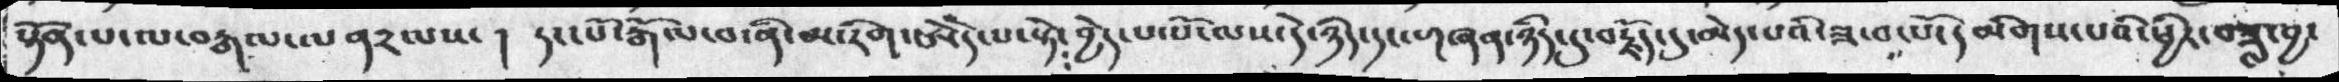སྟོན་པ་ལ་བརྒལ་ལན༢ལས་ ། དང་པོ་རྒོལ་བ་ནི་མ་རིག་ཨེདེ་པ་སྟེ་བྱེད་པ་པོ་ལས་དེ་ཉིད་དང་གཞན་ཉིད་དུ་བརྗོད་དུ་མེད་པའི་ཟ་བ་ོཔོ་དམིགས་པའི་ཕྱིར་བཟླ་བྱ་
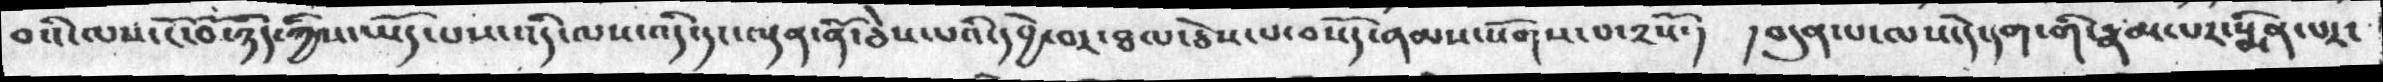བའི་ལས་ངོ་བོ་ཉིད་ཀྱིས་ཡོད་པས་འདི་ལས་འདི་དང་ལྡན་ནོ་ཅེས་པའི་དབྱེ་བར་ཐལ་ཅེས་པ་བསོད་ནམས་སོགས་པ་༢སོ་།  །བདུན་པ་ལས་དེ་དག་གི་རྣམ་པར་སྨིན་པར་
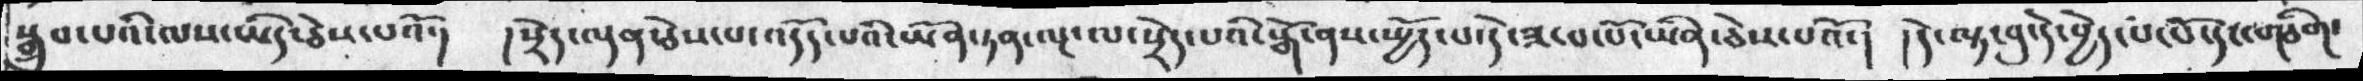སྒྲུབ་པའི་ལས་ཡིད་ཅེས་པའོ་།  །སྲིད་ལྡན་ཅེས་འདོད་པའི་ཡོན་ཏན་ལྔ་ལ་སྲེད་པའི་སྒོ་ནས་སྤྱོད་པ་དེ་ཟ་བ་པོ་ཡིན་ཅེས་པའོ་།   །དེ་ལྟ་བུ་དེ་བྱེད་པ་པོ་དང་གཅིག་
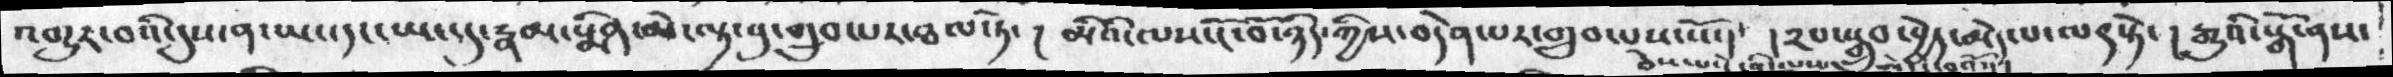འགྱུར་བའི་དུས་ན་ཡང་དང་ཡང་དུ་རྣམ་སྨིན་མེ་ལྟ་བུ་གྲུབ་པར་ཐལ་ཏེ་།  མིའི་ལས་ངོ་བོ་ཉིད་ཀྱིས་བདེན་པར་གྲུབ་པས་སོ་།  ། ༢པ་སྒྲུབ་བྱེད་མེད་པ་ལ༡སྟེ་ །  རྒྱུའི་སྒོ་ནས་
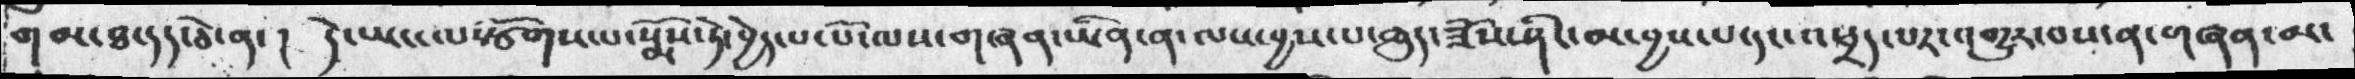གམ་ཐ་དད་ཅེ་ན་ །  དེ་ཡང་ལསྩོགས་པ་སྨོས་ཏེ་བྱེད་པ་པོ་ལས་གཞན་ཡིན་ན་ལས་བྱས་པ་ཆུད་ཟོས་ཤིང་མ་བྱས་པ་དང་འཕྲད་པར་འགྱུར་བས་ན་གཞན་མ་
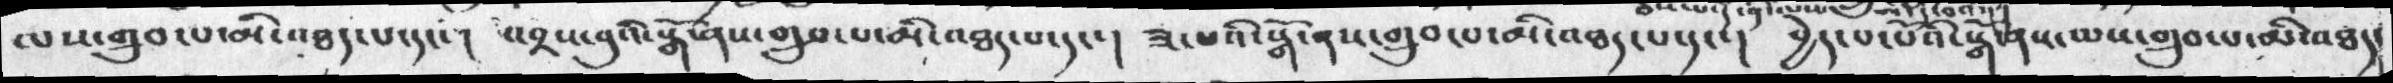ལས་གྲུབ་པ་མི་འཐད་པ་དང་།  འབྲས་བུའི་སྒོ་ནས་གྲུབ་པ་མི་འཐད་པ་དང་།  ཟ་པའི་སྒོ་ནས་གྲུབ་པ་མི་འཐད་པ་དང་།  བྱེད་པ་པོའི་སྒོ་ནས་ལས་གྲུབ་པ་མི་འཐད་
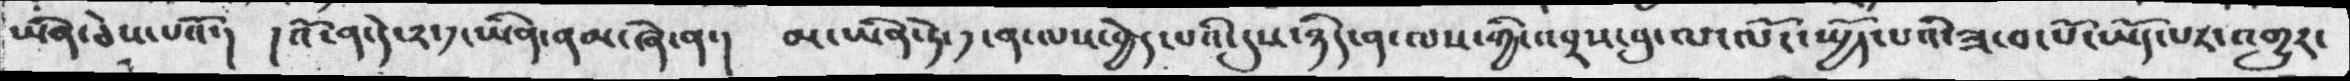ཡིན་ཅེས་པའོ་།  ། འོ་ན་དེ་༢་༡་ཡིན་ནམ་ཞེ་ན་།  མ་ཡིན་ཏེ་ ༡་ན་ལས་བྱེད་པའི་དུས་ཉིད་ན་ལས་ཀྱི་འབྲས་བུ་ལ་ལོང་སྤྱོད་པའི་ཟ་བ་པོ་ཡོད་པར་འགྱུར་
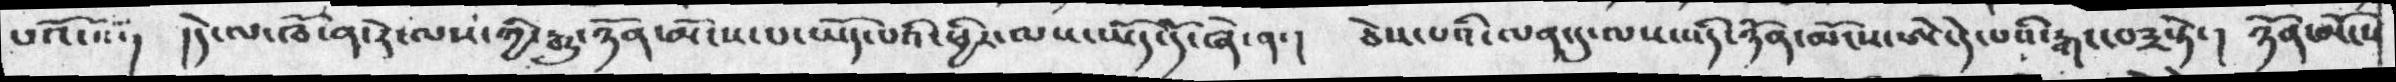པའོ་སོ་།  །དེ་ལ་ཁོ་ན་རེ་ལས་ཀྱི་རྒྱུ་ཉོན་མོངས་པ་ཡོད་པའི་ཕྱིར་ལས་ཡོད་དོ་ཞེ་ན་།  ཅེས་པའི་ལན་དུ་ལས་འདི་ཉོན་མོངས་ཨེ་དེ་པའི་རྐང་བ༣སྟེ་།  ཉོན་མོངས་
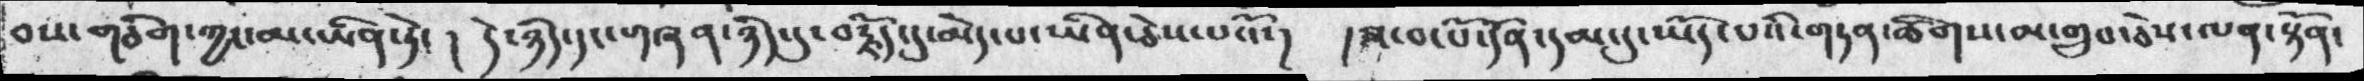བས་གཅིག་ཀྱང་མ་ཡིན་ཏེ་ ། དེ་ཉིད་དང་གཞན་ཉིད་དུ་བརྗོད་དུ་མེད་པ་ཡིན་ཅེས་པའོ་།   །ཟ་བ་པོ་དོན་དམ་དུ་ཡོད་པའི་གཏན་ཚིགས་མ་གྲུབ་ཅེས་ལན་སྟོན་
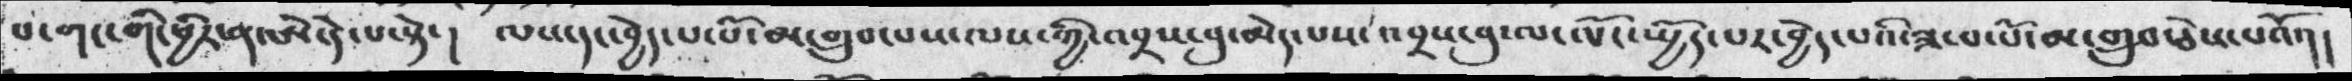པ་གང་གི་ཕྱིར་ན་ཨེ་དེ་པ་སྟེ་།  ལས་དང་བྱེད་པ་པོ་མ་གྲུབ་པས་ལས་ཀྱི་འབྲས་བུ་མེད་པས་འབྲས་བུ་ལ་ལོང་སྤྱོད་པར་བྱེད་པའི་ཟ་བ་པོ་མ་གྲུབ་ཅེས་པའོ་།།
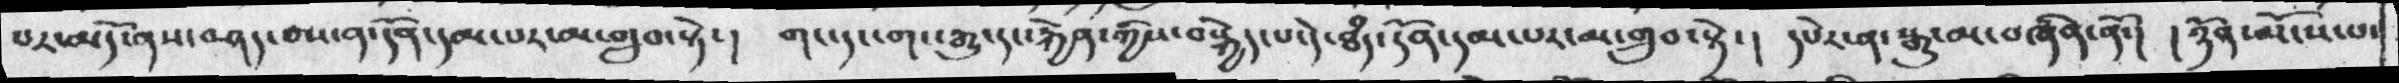པར་མདོ་ནས་བཤད་བས་ན་དོན་པར་མ་གྲུབ་སྟེ་།  གང་དང་གང་རྒྱུ་དང་རྐྱེན་ཀྱིས་བསྐྱེད་པ་དེ་ཐདཾ་དོན་དམ་པར་མ་གྲུབ་སྟེ་།  དཔེར་ན་རྒྱུ་ན་བཞིན་ནོ་།   ། ཉོན་མོངས་པ་
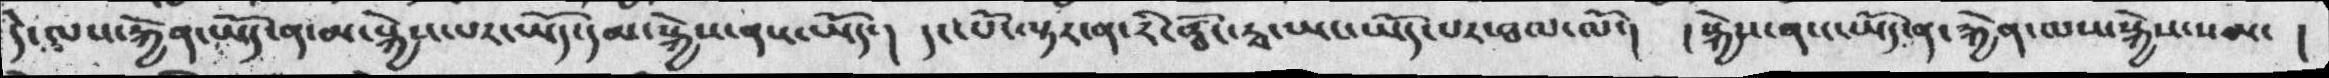དེ་ལས་རྐྱེན་ཡོད་ན་མ་སྐྱེས་པར་ཡོད་དམ་སྐྱེས་ནས་ཡོད་།    དང་པོ་ལྟར་ན་རི་བྭོང་རྭ་ཡང་ཡོད་པར་ཐལ་ལོ་།   ། སྐྱེས་ནས་ཡོད་ན་རྐྱེན་ལས་སྐྱེས་སམ་   །
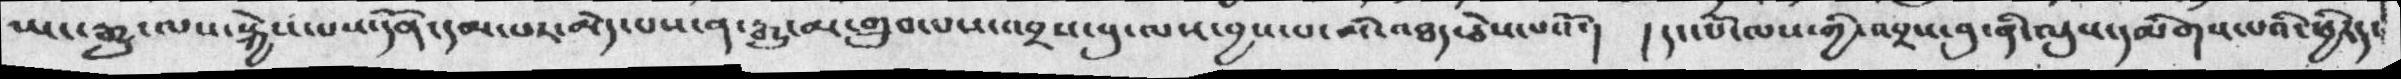ཡང་རྒྱུ་ལས་སྐྱེས་པས་དོན་དམ་པར་མེད་པས་ན་རྒྱུ་མ་གྲུབ་པས་འབྲས་བུ་ལས་བྱས་པ་མི་འཐད་ཅེས་པའོ་།   །དང་པོ་ལས་གྱི་འབྲས་བུ་ནི་ལུས་དམིགས་པའི་ཕྱིར་དང
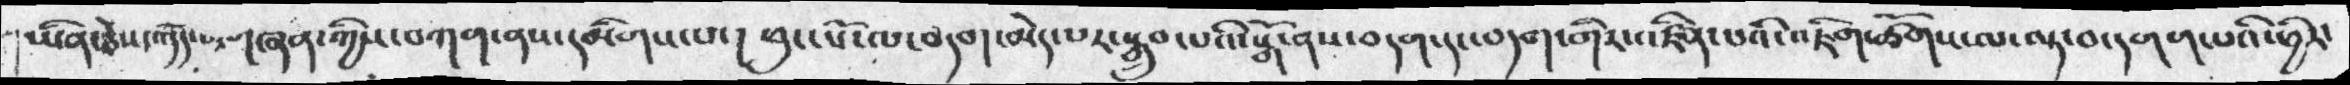ཡིན་ཅེས་འདོད་པ་གཞན་ཀྱིས་བཀག་ནས་དམིགས་པ་། ཕུང་པོ་ལ་བདག་མེད་པར་སྒྲུབ་པའི་སྒོ་ནས་བདག་དང་བདག་གིར་འཛིན་པའི་འཇིག་ཚོགས་ལ་ལྟ་བ་དགག་པའི་ཕྱིར་
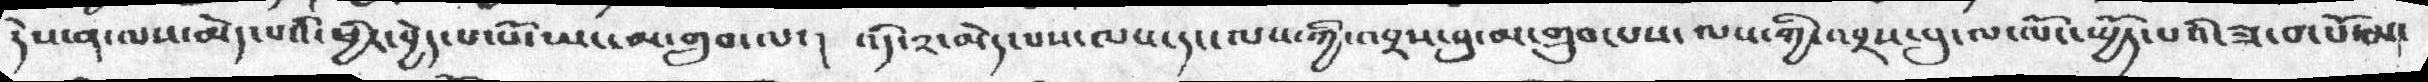དེས་བ་ལས་མེད་པའི་ཕྱིར་བྱེད་པ་པོ་ཡང་མ་གྲུབ་ལ་།  འདི་༢་མེད་པས་ལས་དང་ལས་ཀྱི་འབྲས་བུ་མ་གྲུབ་པས་ལས་གྱི་འབྲས་བུ་ལ་ལོང་སྤྱོད་པའི་ཟ་བ་པོ་མ་
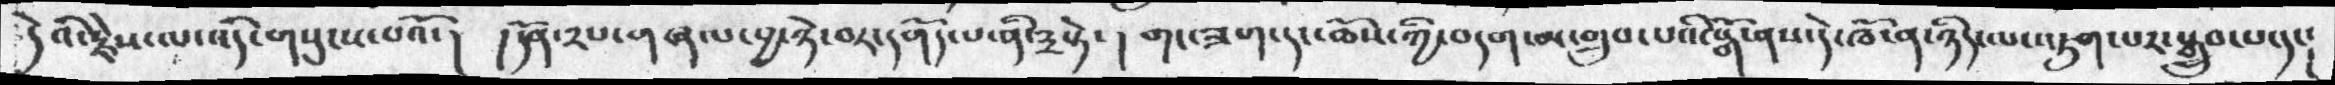དེའི་རྗེས་ལ་འདི་གསུངས་པའོ་།  །དོན་༢པ་གཞལ་བྱ་ཉེ་བར་དགོད་པ་ན་༣སྟེ་ ། གང་ཟག་དང་ཆོས་ཀྱི་བདག་མ་གྲུབ་པའི་སྒོ་ནས་དེ་ཁོ་ན་ཉིད་ལ་འཇུག་པར་སྒྲུབ་པ་དང་།
